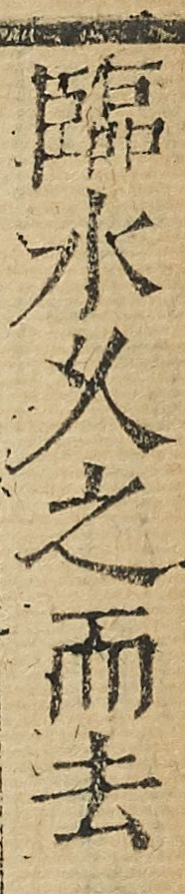臨水久之而去
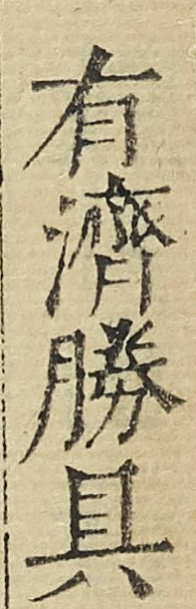有濟勝具
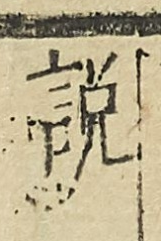說
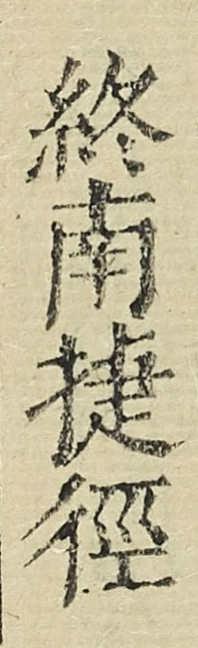終南捷徑
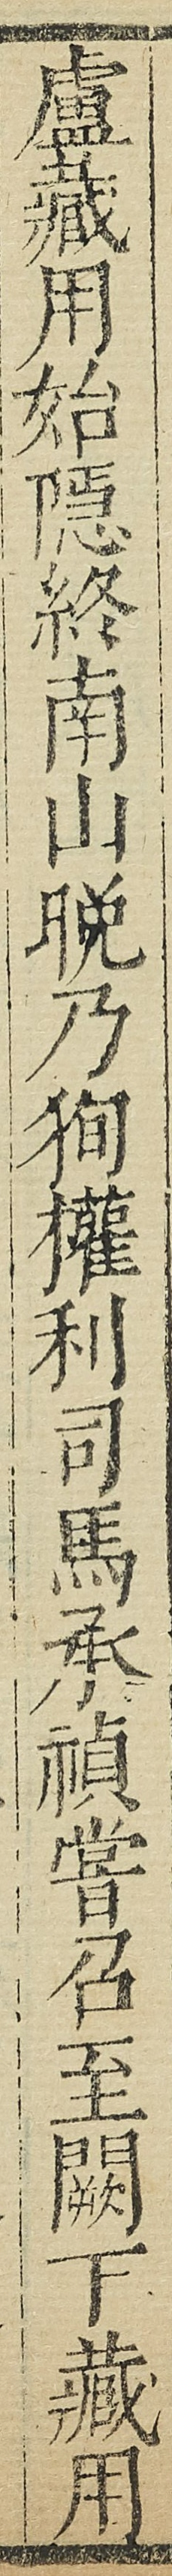盧藏用始隠終南山晩乃狥權利司馬承禎嘗召至闕下藏用
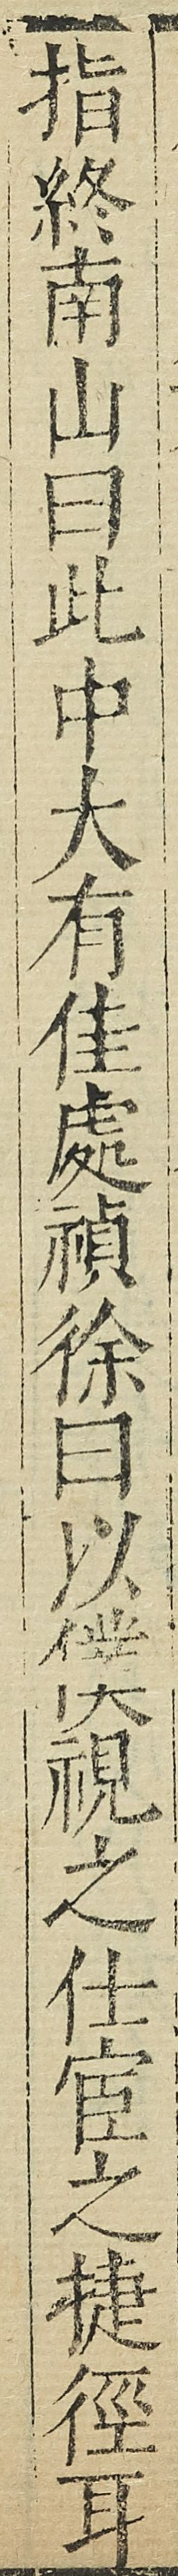指終南山曰此中大有佳處禎徐曰以僕視之仕宦之捷徑耳
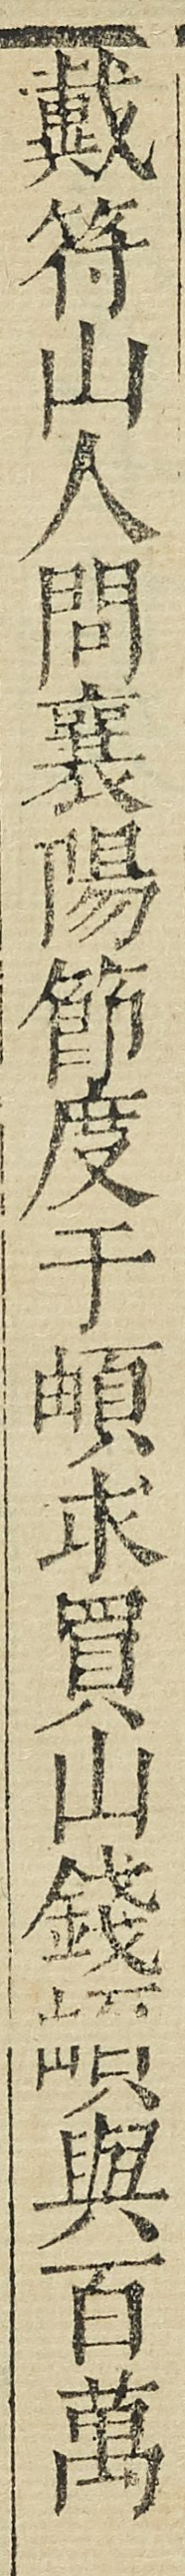戴符山人問襄陽節度于頔求買山錢頔與百萬
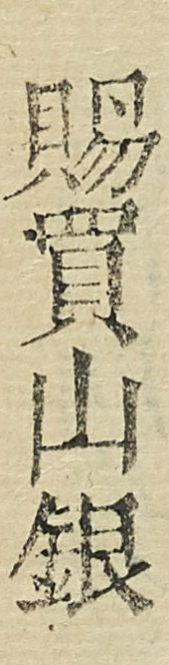賜買山銀
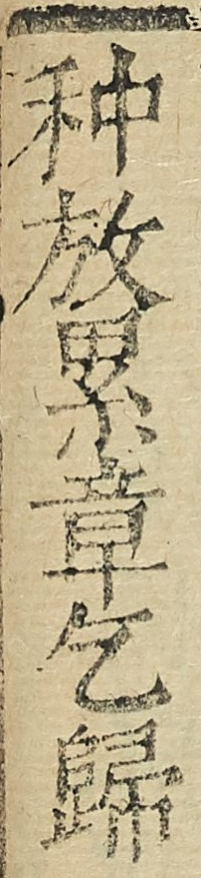种放累章乞歸
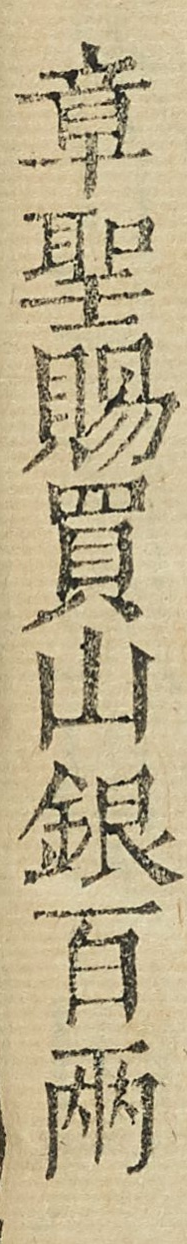章聖賜買山銀百兩
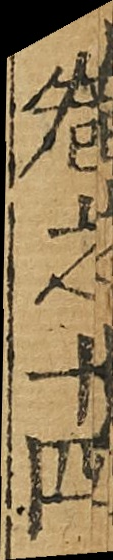卷之十四
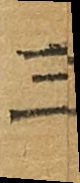三
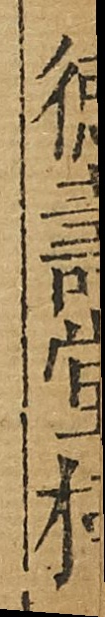德壽堂梓
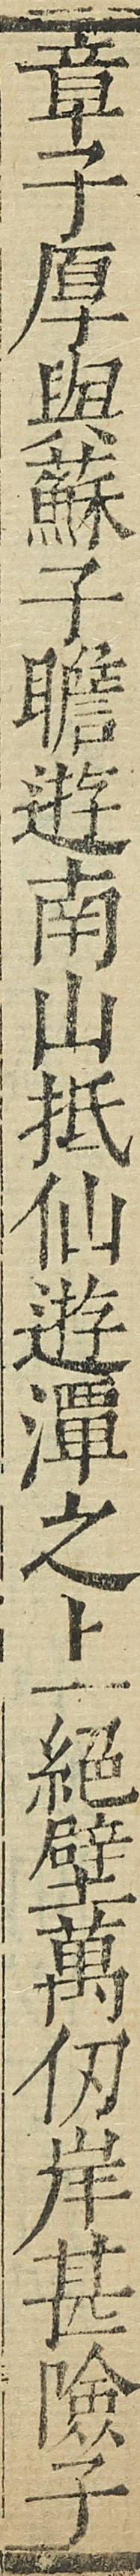章子厚與蘇子瞻逰南山抵仙逰潭之上絶壁萬仭岸甚險子
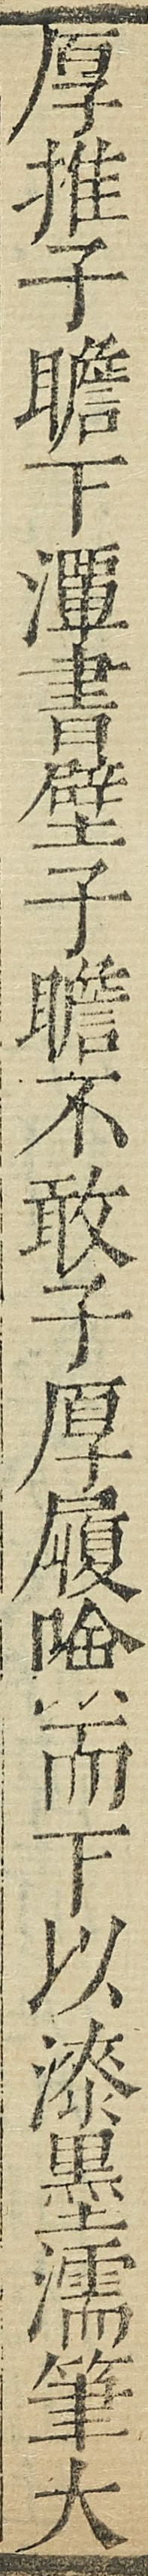厚推子瞻下潭書壁子瞻不敢子厚履險而下以漆墨濡筆大
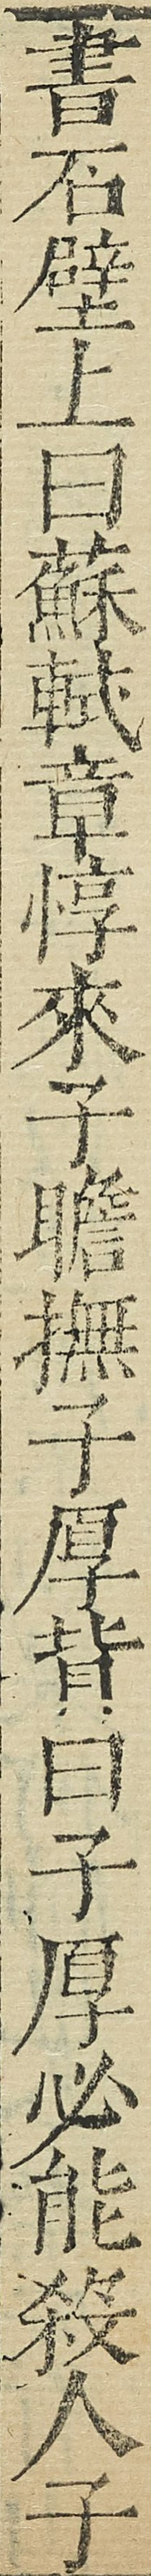書石壁上曰蘇軾章惇來子瞻撫子厚背曰子厚必能殺人子
